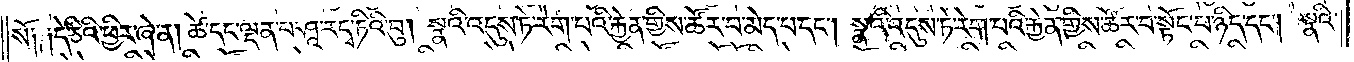སོ། །དེ་ཅིའི་ཕྱིར་ཞེ་ན། ཚེ་དང་ལྡན་པ་ཤཱ་རདྭ་ཏིའི་བུ། སྣའི་འདུས་ཏེ་རེག་པའི་རྐྱེན་གྱིས་ཚོར་བ་མེད་པ་དང༌། སྣའི་འདུས་ཏེ་རེག་པའི་རྐྱེན་གྱིས་ཚོར་བ་སྟོང་པ་ཉིད་དང༌། སྣའི་
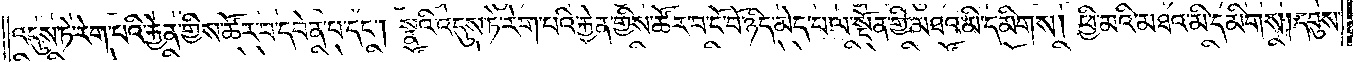འདུས་ཏེ་རེག་པའི་རྐྱེན་གྱིས་ཚོར་བ་དབེན་པ་དང༌། སྣའི་འདུས་ཏེ་རེག་པའི་རྐྱེན་གྱིས་ཚོར་བ་ངོ་བོ་ཉིད་མེད་པ་ལ་སྔོན་གྱི་མཐའ་མི་དམིགས། ཕྱི་མའི་མཐའ་མི་དམིགས། དབུས་
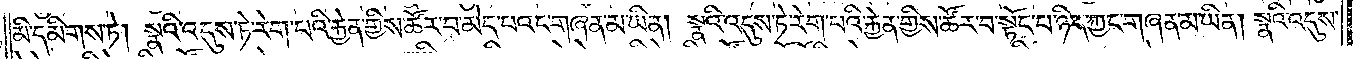མི་དམིགས་ཏེ། སྣའི་འདུས་ཏེ་རེག་པའི་རྐྱེན་གྱིས་ཚོར་བ་མེད་པའང་གཞན་མ་ཡིན། སྣའི་འདུས་ཏེ་རེག་པའི་རྐྱེན་གྱིས་ཚོར་བ་སྟོང་པ་ཉིད་ཀྱང་གཞན་མ་ཡིན། སྣའི་འདུས་
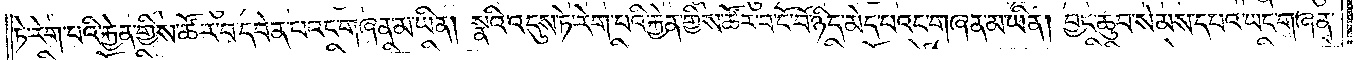ཏེ་རེག་པའི་རྐྱེན་གྱིས་ཚོར་བ་དབེན་པའང་གཞན་མ་ཡིན། སྣའི་འདུས་ཏེ་རེག་པའི་རྐྱེན་གྱིས་ཚོར་བ་ངོ་བོ་ཉིད་མེད་པའང་གཞན་མ་ཡིན། བྱང་ཆུབ་སེམས་དཔའ་ཡང་གཞན་
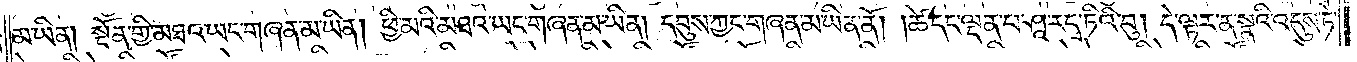མ་ཡིན། སྔོན་གྱི་མཐའ་ཡང་གཞན་མ་ཡིན། ཕྱི་མའི་མཐའ་ཡང་གཞན་མ་ཡིན། དབུས་ཀྱང་གཞན་མ་ཡིན་ནོ། །ཚེ་དང་ལྡན་པ་ཤཱ་རདྭ་ཏིའི་བུ། དེ་ལྟར་ན་སྣའི་འདུས་ཏེ་
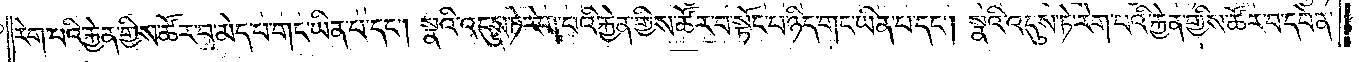རེག་པའི་རྐྱེན་གྱིས་ཚོར་བ་མེད་པ་གང་ཡིན་པ་དང༌། སྣའི་འདུས་ཏེ་རེག་པའི་རྐྱེན་གྱིས་ཚོར་བ་སྟོང་པ་ཉིད་གང་ཡིན་པ་དང༌། སྣའི་འདུས་ཏེ་རེག་པའི་རྐྱེན་གྱིས་ཚོར་བ་དབེན་
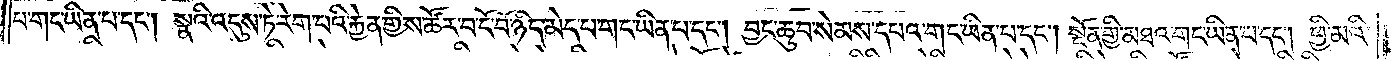པ་གང་ཡིན་པ་དང༌། སྣའི་འདུས་ཏེ་རེག་པའི་རྐྱེན་གྱིས་ཚོར་བ་ངོ་བོ་ཉིད་མེད་པ་གང་ཡིན་པ་དང༌། བྱང་ཆུབ་སེམས་དཔའ་གང་ཡིན་པ་དང༌། སྔོན་གྱི་མཐའ་གང་ཡིན་པ་དང༌། ཕྱི་མའི་
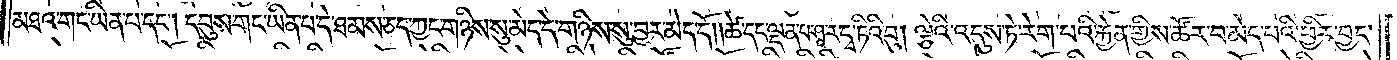མཐའ་གང་ཡིན་པ་དང༌། དབུས་གང་ཡིན་པ་དེ་ཐམས་ཅད་ཀྱང་གཉིས་སུ་མེད་དེ་གཉིས་སུ་བྱར་མེད་དོ། །ཚེ་དང་ལྡན་པ་ཤཱ་རདྭ་ཏིའི་བུ། ལྕེའི་འདུས་ཏེ་རེག་པའི་རྐྱེན་གྱིས་ཚོར་བ་མེད་པའི་ཕྱིར་བྱང་
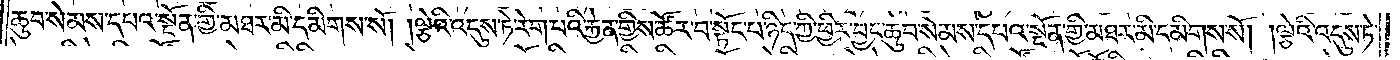ཆུབ་སེམས་དཔའ་སྔོན་གྱི་མཐར་མི་དམིགས་སོ། །ལྕེའི་འདུས་ཏེ་རེག་པའི་རྐྱེན་གྱིས་ཚོར་བ་སྟོང་པ་ཉིད་ཀྱི་ཕྱིར་བྱང་ཆུབ་སེམས་དཔའ་སྔོན་གྱི་མཐར་མི་དམིགས་སོ། །ལྕེའི་འདུས་ཏེ་
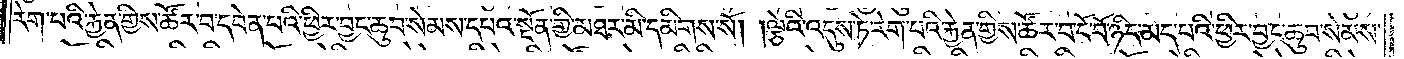རེག་པའི་རྐྱེན་གྱིས་ཚོར་བ་དབེན་པའི་ཕྱིར་བྱང་ཆུབ་སེམས་དཔའ་སྔོན་གྱི་མཐར་མི་དམིགས་སོ། །ལྕེའི་འདུས་ཏེ་རེག་པའི་རྐྱེན་གྱིས་ཚོར་བ་ངོ་བོ་ཉིད་མེད་པའི་ཕྱིར་བྱང་ཆུབ་སེམས་
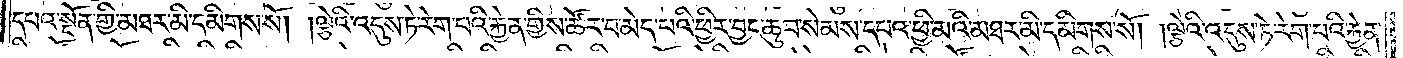དཔའ་སྔོན་གྱི་མཐར་མི་དམིགས་སོ། །ལྕེའི་འདུས་ཏེ་རེག་པའི་རྐྱེན་གྱིས་ཚོར་བ་མེད་པའི་ཕྱིར་བྱང་ཆུབ་སེམས་དཔའ་ཕྱི་མའི་མཐར་མི་དམིགས་སོ། །ལྕེའི་འདུས་ཏེ་རེག་པའི་རྐྱེན་
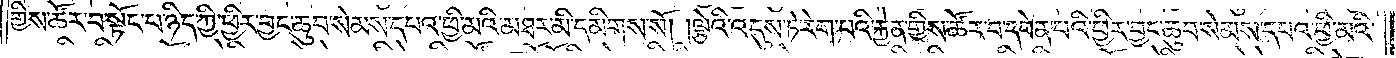གྱིས་ཚོར་བ་སྟོང་པ་ཉིད་ཀྱི་ཕྱིར་བྱང་ཆུབ་སེམས་དཔའ་ཕྱི་མའི་མཐར་མི་དམིགས་སོ། །ལྕེའི་འདུས་ཏེ་རེག་པའི་རྐྱེན་གྱིས་ཚོར་བ་དབེན་པའི་ཕྱིར་བྱང་ཆུབ་སེམས་དཔའ་ཕྱི་མའི་
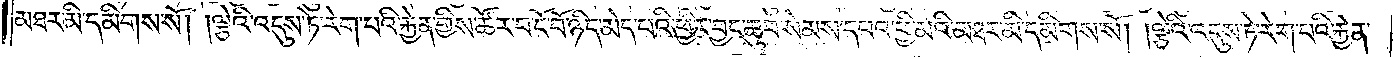མཐར་མི་དམིགས་སོ། །ལྕེའི་འདུས་ཏེ་རེག་པའི་རྐྱེན་གྱིས་ཚོར་བ་ངོ་བོ་ཉིད་མེད་པའི་ཕྱིར་བྱང་ཆུབ་སེམས་དཔའ་ཕྱི་མའི་མཐར་མི་དམིགས་སོ། །ལྕེའི་འདུས་ཏེ་རེག་པའི་རྐྱེན་
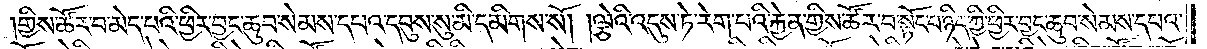གྱིས་ཚོར་བ་མེད་པའི་ཕྱིར་བྱང་ཆུབ་སེམས་དཔའ་དབུས་སུ་མི་དམིགས་སོ། །ལྕེའི་འདུས་ཏེ་རེག་པའི་རྐྱེན་གྱིས་ཚོར་བ་སྟོང་པ་ཉིད་ཀྱི་ཕྱིར་བྱང་ཆུབ་སེམས་དཔའ་
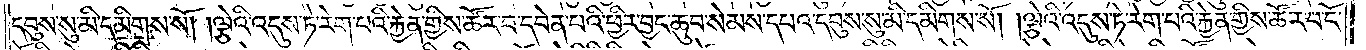དབུས་སུ་མི་དམིགས་སོ། །ལྕེའི་འདུས་ཏེ་རེག་པའི་རྐྱེན་གྱིས་ཚོར་བ་དབེན་པའི་ཕྱིར་བྱང་ཆུབ་སེམས་དཔའ་དབུས་སུ་མི་དམིགས་སོ། །ལྕེའི་འདུས་ཏེ་རེག་པའི་རྐྱེན་གྱིས་ཚོར་བ་ངོ་
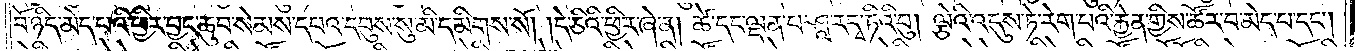བོ་ཉིད་མེད་པའི་ཕྱིར་བྱང་ཆུབ་སེམས་དཔའ་དབུས་སུ་མི་དམིགས་སོ། །དེ་ཅིའི་ཕྱིར་ཞེ་ན། ཚེ་དང་ལྡན་པ་ཤཱ་རདྭ་ཏིའི་བུ། ལྕེའི་འདུས་ཏེ་རེག་པའི་རྐྱེན་གྱིས་ཚོར་བ་མེད་པ་དང༌།
